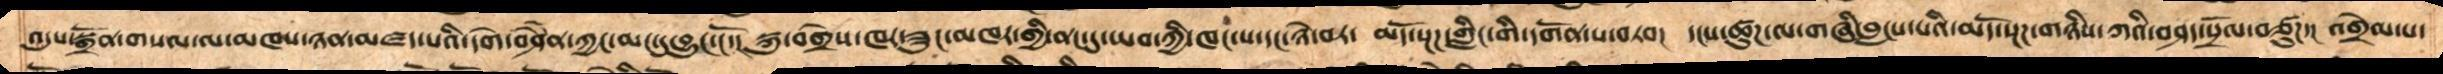འདུས་སྒྲོན་གསལ་ལ་མཁས་ཉན་མཛད་པའི་དགེ་བཤཻན་ཀྱང་མང་དུ་བྱུང་ངོ་།  སྐུ་བགྲེས་ཁར་ཟུང་མཁར་གྱི་ནང་དུ་ཡབ་ཀྱི་ཁང་པ་དང་ཉེ་བར་ མདོ་སྔཌ་གླིང་གི་དགོན་པ་བཏབ། དངས་ཚུཌ་ལ་གཞི་བླངས་པའི་མདོ་སྔཌ་གཉིས་ཀའི་བཤད་སྲོལ་བཙུཌ།  འགྲེལ་པ་
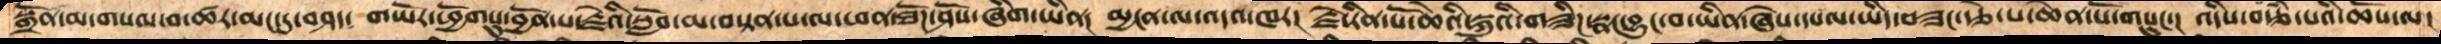སྒྲོན་མ་གསལ་བ་ཚར་མང་དུ་བཤད།  གཡོར་ཕྱོགསུ་བྱོན་པའི་རྗེའི་སློབ་མ་བསྟན་པ་ལ་ཕན་ཐོཌ་ཤོས་ཞིག་ཡིན།  མྱངན་ལ་འདའ་ཁར།  རྗེ་རིན་པོ་ཆེའི་སྐུའི་གཟིཌ་སྣང་བྱུང་བ་ཡིན་ཞེས་དཔལ་ཡིད་བཟང་རྩེ་པ་ཆེན་པོ་གསུང་།  འདིས་བརྩཾ་པའིཆོས་ལ་
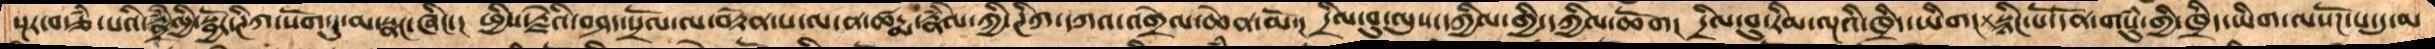སྔར་བརྩཾ་པའི་རྣྲེཾལྱི་སྦྱོར་ཊིཀ་སོག་དུ་མ་སྣང་ཞིང་། ཕྱིས་རྗེའི་བཤད་སྲོལ་ལ་བརྟེན་པ་ལ་ཚདྨ་རྣྲེཾལ་ཀྱི་ཊིཀ་དཀའ་འགྲེལ་ཆེན་མོ། དྲིལ་བུ་ལུས་དཀྱིལ་གྱི་དཀྱིལ་ཆོག  དྲིལ་བུ་རིམ་ལྔའི་ཁྲིད་ཡིག  སྙིང་པོ་དོན་གསུཾ་གྱི་ཁྲིད་ཡིག་ལསོཌ་པ་དུ་མ་
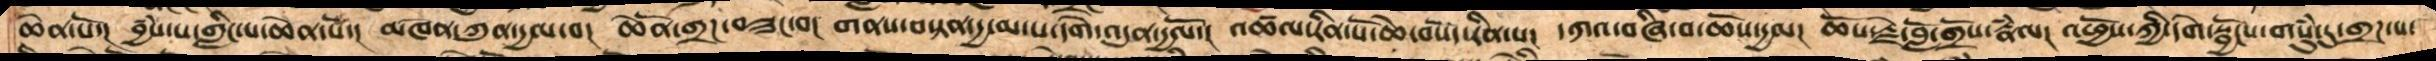ཆེན་པོ་།  བྱཾས་པ་གླིང་པ་ཆེན་པོ།  མཁེན་ཀུན་དྱལ་བ།  ཆེནོ་གྲཌ་བཟང་བ།  གནས་བསྟན་དྱ་མ་པ་དགེ་འདུན་དྱལོ་། འཚལ་རིན་པོ་ཆེ་བསོད་རིན་པ།  དཀའ་བཞི་པ་ཆོས་དྱལ།  ཆོས་རྗེ་བློ་གྲོས་རྣཾལ།  འཕྱོས་ཀྱི་དགེ་སྦྱོངས་གསུཾ་དུ་གྲཌ་པ་
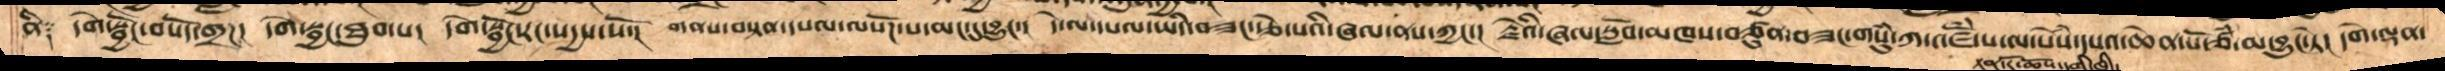ནི༑   དགེ་སྦྱོང་བསོད་གྲཌ། དགེ་སྦྱང་ཐུབ་པ། དགེ་སྦྱོང་རང་སདྱས་སོ་།  གནངབསྟན་་དཔལ་ལསོཌ་པ་མང་དུ་བྱུང་།  དེ་ལ་དཔལ་ཡིད་བཟང་རྩེ་པའི་ཞལ་ནས་ཀྱང་། རྗེའི་ཞལ་སློབ་མཁས་བཙུན་བཟང་གསུཾ་ཀ་འཛོཾ་པ་ལ་སེཾས་དཔའ་ཆེན་པོ་ཙཾ་མ་བྱུང་སྟེ། དགེ་ལྡན་
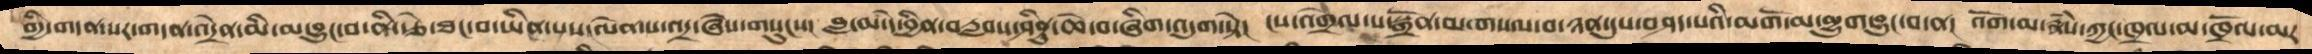གྱི་གདན་སར་གདན་འདྲེན་མི་མ་བྱུང་བ་ནི་རྩེ་ཐང་བ་ཡིན་པས་ལེན་པ་འདྲ་ཞེས་གསུངས།  བླ་མ་དེ་བྱིན་བརླབས་ཤིནུ་ཆེ་བ་ཞིག་འདུག་སྟེ།  ངས་འགྲེལ་པ་སྒྲོན་མ་གསལ་བ་ཉན་དུས་བཤད་པའི་མགོ་མ་མྱུག་བྱུང་བ་ན།  འོག་མ་རྣཾས་ཀྱང་ཁྲལ་མ་ཁྲོལ་མར་
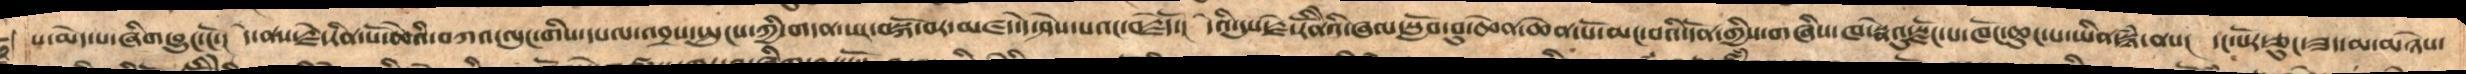པ་མེད་པ་ཞིག་བྱུང་ངོ་། དེ་ནས་རྗེ་རིན་པོ་ཆེའི་བཀའ་ལུང་གིས་དཔལ་འབྲས་སྤུངས་ཀྱི་གདན་སར་བསྐོ་བར་མཛད་དེ་ཤེས་པའང་བརྗོདོ་།  དེའི་དུས་རྗེ་རིནོེའི་ཞལ་སློབ་བུ་ཆེན་ཆེན་པོ་མང་བའི་དོན་གྱིས་གཞིས་ཁ་སྣེའུ་སྫོང་པ་ཁོང་ཆུང་པ་ཡིན་སྙཾ་ནས།  དང་པོ་ཅུང་ཟད་མ་མཉེས་
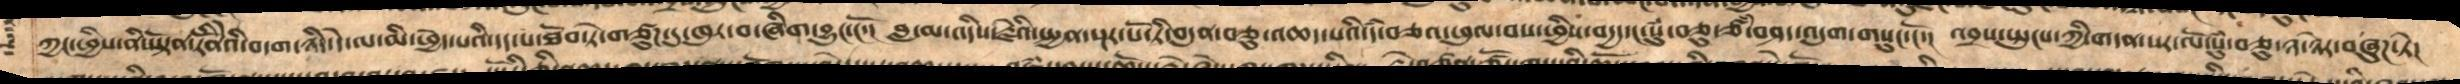ཀྱང་ཕྱིས་ནི་ཡྟོན་རིནོེའི་བདག་ཉིད་དེ་ལ་མི་ཕྱེད་པའི་དད་པ་ཐོབ་སྟེ་གཙུཌ་དུ་ཁུར་བ་ཞིག་བྱུང་ངོ་།  བླ་མ་འདིས་རྗེའི་སྤྱན་སྔར་པོ་ཏི་བདུན་བཅུ་འཆད་པའི་དཾ་བཅའ་ཕུལ་བས་ཕྱིས་བདྱད་དང་སུཾ་བཅུ་ཙཾ་བཤད་འདུག་གསུང་ངོ།  འབྲས་སྤུངས་ཀྱི་གདན་སར་ལོ་སུཾ་བཅུ་ཉ་་ཉེར་བཞུཌ་ཏེ།
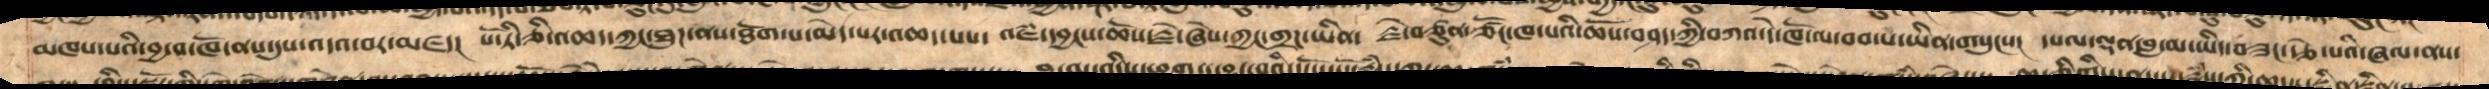མཁས་པའི་བྱ་བ་ཁོ་ནས་དུས་འདས་བར་མཛད། པོ་ཏི་ཅི་འཆད་ཀྱང་ཐུཌ་ནས་ཐོག་པ་མེད་པར་འཆད་པས་ འཇཾ་དབྱངས་ཆོས་རྗེ་ཞེས་ཀྱང་གྲཌ་ཡིན། རྗེ་བཙུན་ཙོང་ཁ་པའི་ཆོས་བཤད་ཀྱི་བཀའ་དེ་ཁོ་ལ་བབ་པ་ཡིན་གསུངས། དཔལ་ལྡན་བླ་མ་ཡིད་བཟང་རྩེ་པའི་ཞལ་ནས་
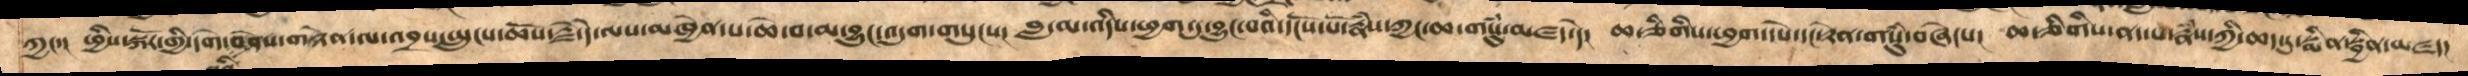ཀྱང་། ཕྱིས་སྐོར་གྱི་དགེ་བའི་བཤེས་གཉེན་ལ་འབྲས་སྤུངས་ཆོས་རྗེ་དེ་ལས་མཁྱེན་པ་ཆེ་བ་མ་བྱུང་འདུག་གསུངས། བླ་མ་འདིས་ཕྱག་དུ་བྱུང་བའི་དངོས་པོ་རྣཾས་ཀྱང་ཆ་གསུཾ་མཛད་དེ། ཆ་ཅིགིས་ཕྱག་དཔེ་དང་རྟེན་གསུཾ་བཞེངས། ཆ་ཅིགིས་ནད་པ་རྣཾས་ཀྱི་ཆད་དུ་སྨིན་སྦྱིན་མཛད།
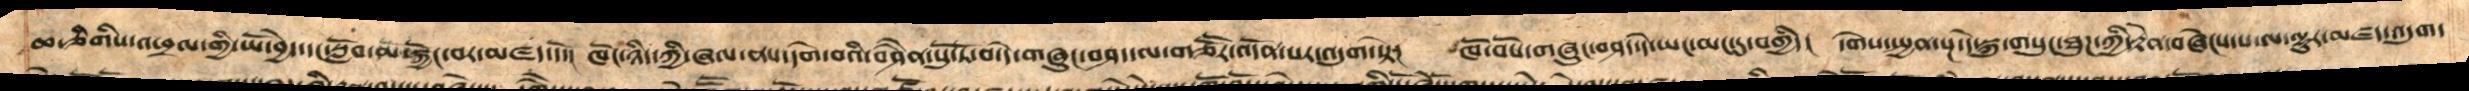ཆ་ཅིགིས་འཕྲལ་གྱི་ཡོ་བྱེད་དང་སློབ་མ་སྐྱོང་བར་མཛད་དོ།  ཁོང་ཉིད་ཀྱི་ཞལ་ནས་དགེ་བའི་བཤཻན་པོ་ཏོ་བ་དེ་གཞུང་བཤད་ལ་གཙཽར་འདོན་པར་འདུག་སྟེ། ཁོ་བོས་གཞུང་བཤད་དེ་ཡང་མང་དུ་བགྱིད། དགེས་སྤྱན་སྔ་དེ་སྐུ་གསུང་ཐུཌ་ཀྱི་རྟེན་བཞེངས་པ་ལ་ལྷུར་མཛད་འདུག་
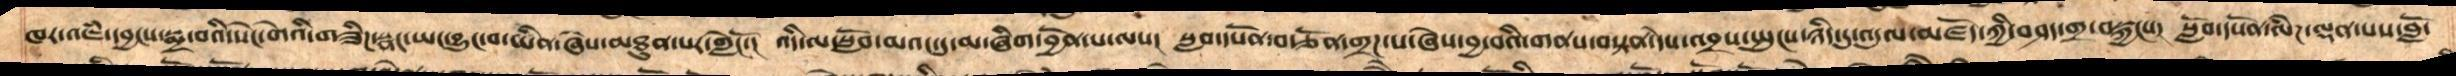ཁར་འཇཾ་དབྱངས་སྨྲ་བའི་སེང་གེའི་གཟིཌ་སྣང་ཡང་བྱུང་བ་ཡིན་ཞེས་མཐུན་པར་གླེངོ་།  འདི་ལ་སློབ་མའང་དུ་མ་ཞིག་བྱོན་པ་ལས།  སླབ་དཔོན་བརྩོན་གྲཌ་པ་ཞེས་བྱ་བའི་གནས་བསྟན་དེས་འབྲས་སྤུངས་ཉིད་དུ་འདུལ་མཛོད་ཀྱིབཤད་གྲ་བསྐྱངས།  སློབ་དཔོན་ལེཌ་ལྡན་པས་བློ་
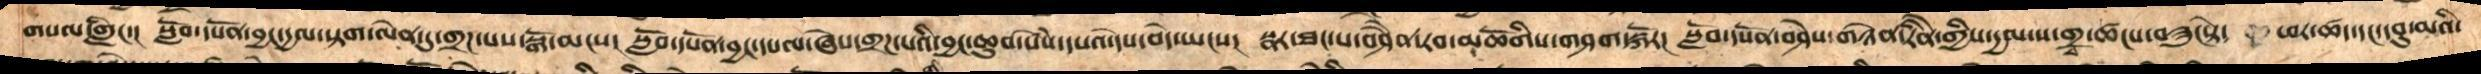གསལ་གླིང་།  སློབ་དཔོན་བྱང་དྱལ་སྟག་ལེན་དུ་གྲཌ་པས་སྒོ་མངས།  སློབ་དཔོན་བྱང་དཔལ་ཞེས་གྲཌ་པའི་བྱང་ཆུབ་སེཾས་དཔའ་དེས་བདེ་ཡངས།  སྣར་ཐང་པ་བཤཻན་རབ་མཆོགིས་བཤག་སྐོར།  སློབ་དཔོན་བཤེས་གཉེན་རིནེ་གྱིས་དྱལ་པ་གྲཱ་ཚངས་བཟུངསྟེ།  ཕར་ཚད་དང་དབུ་མའི་
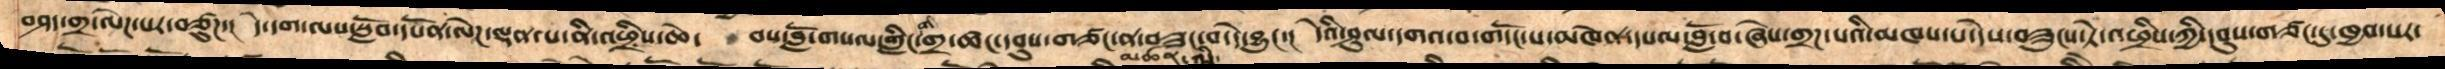བཤད་གྲ་ལེཌ་པར་བཙུཌ་།།  དེ་དག་ལས་སློབ་དཔོན་ལེཌ་ལྡན་པ་ནི་འཕྲིས་ཆེ་  བས་བློ་གསལ་གླིང་གི་གྲ་ཚང་དབུས་གཙང་ན་བཟང་བ་དེ་བྱུང་།  དེའི་ཤུལ་དགའ་བ་གདོང་པ་མཁེན་དཔལ་བློ་བ་ཞེས་གྲཌ་པའི་མཁས་པ་དེས་བཟུངས་ཏེ་འཕྲིས་ཀྱི་དབུས་གཙང་དུ་ཁྱབ་པར་
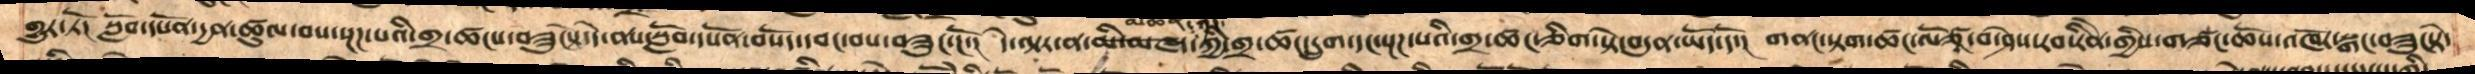གྱུར་ཏོ།  སློབ་དཔོན་དྱན་ཚུལ་བས་སྔཌ་པའི་གྲ་ཚངས་བཟུངསྟེ་དེ་ནས་སློབ་དཔོན་བསོད་དབང་བས་བཟུང་ངོ་།  དེ་ལྟར་ན་མི་མཛད་ཀྱི་གྲ་ཚང་དྲུག་དང་སྔཌ་པའི་གྲ་ཚང་ཅིག་སྟེ་བདུན་ཡོད་དོ།  གནང་སྟག་ཚང་ལོ་ཙཱ་བ་ཤེས་རབ་རིནེ་གྱིས་གཙང་ཆོས་འཁོར་སྒང་བཟུངསྟེ་
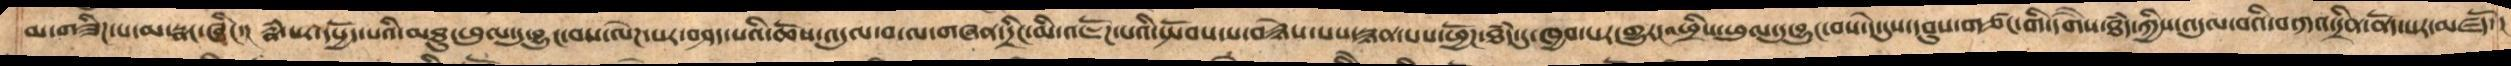མ་གཟིཌ་པ་མ་སྣང་ཞིང་།  རྣཾ་པར་དཔྱོད་པའི་མཐུ་ཕུལ་དུ་བྱུང་བས་ལེཌ་པར་བཤད་པའི་ཆོས་འདུལ་བ་ལ་གཞན་དྲིང་མི་འཇོཌ་པའི་སྤོབས་པ་བརྙེས་པས་སྙན་པས་ཕྱོཌ་ཐཾད་དུ་ཁྱབ་པར་གྱུར། འཕྲིས་ཕུལ་དུ་བྱུང་བས་དེ་དུས་དབུས་གཙང་གི་དགཻས་ཐཾད་ཀྱིས་འདུལ་བའི་བཀའ་དྲིན་ནོད་པར་མཛདོ་།
